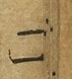二
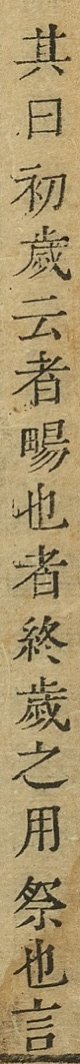其曰初歲云者畼也者終歲之用祭也言
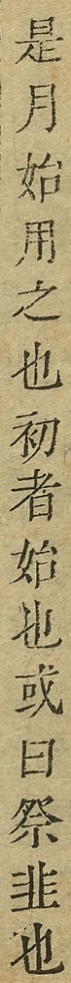是月始用之也初者始也或曰祭韭也
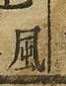風
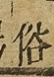俗
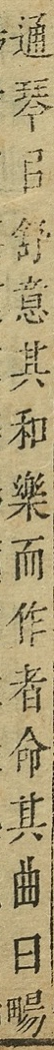通琴以舒意其和樂而作者命其曲曰畼
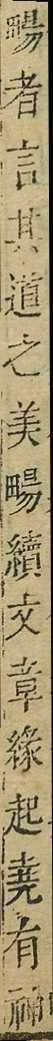畼者言其道之美畼續文章緣起堯有神
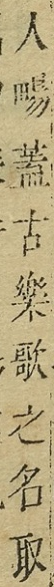人畼蓋古樂歌之名取
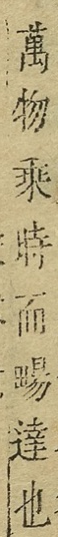萬物乘時而畼達也
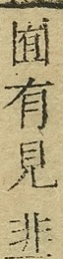囿有見韭
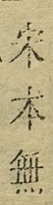宋本無
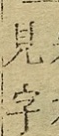見字
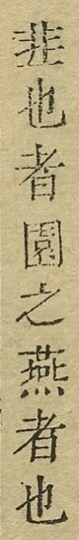韭也者園之燕者也
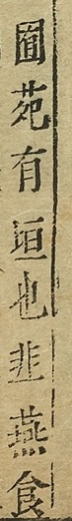囿苑有垣也韭燕食
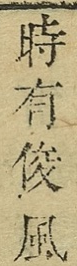時有俊風
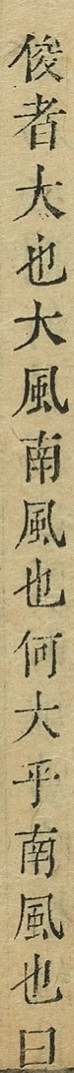後者大也大風南風也何大乎南風也曰
